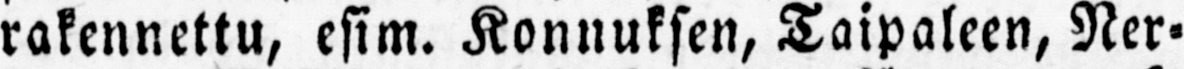rakennettu, esim. Konnuksen, Taipaleen, Ner-
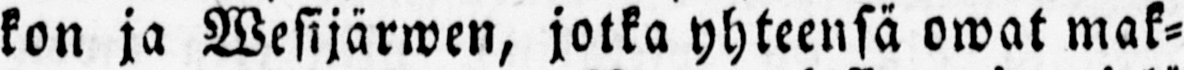kon ja Wesijärwen, jotka yhteensä owat mak-
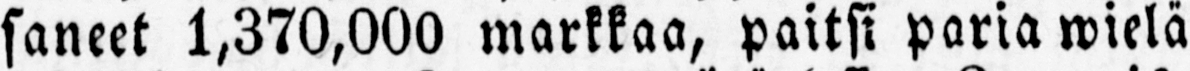saneet 1,370,000 markkaa, paitsi paria wielä
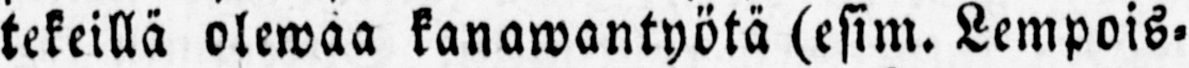tekeillä olewaa kanawantyötä (esim. Lempois-
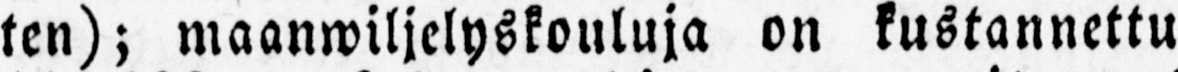ten); maanwiljelyskouluja on kustannettu
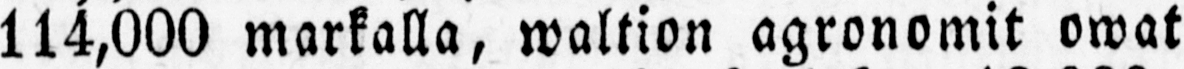114,000 markalla, waltion agronomit owat
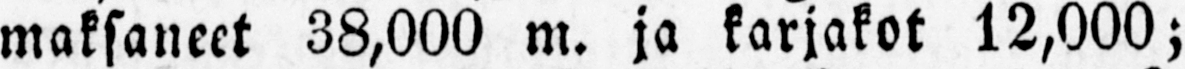maksaneet 38,000 m. ja karjakot 12,000;
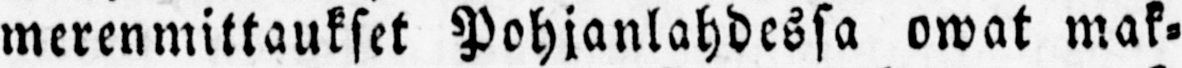merenmittaukset Pohjanlahdessa owat mak-
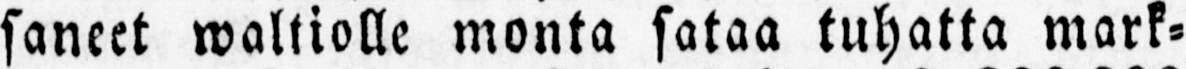saneet waltiolle monta sataa tuhatta mark-
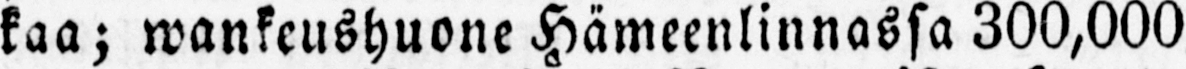kaa; wankeushuone Hämeenlinnassa 300,000
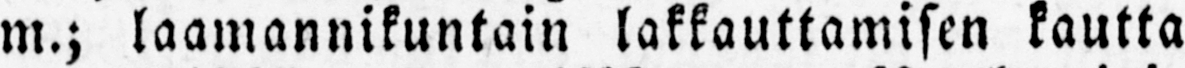m.; laamannikuntain lakkauttamisen kautta
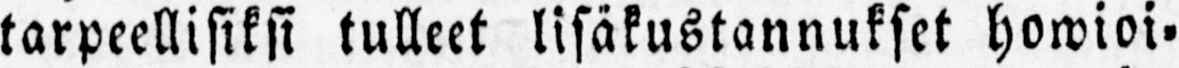tarpeellisiksi tulleet lisäkustannukset howioi-
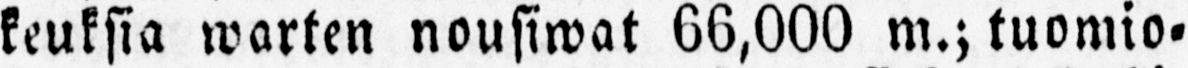keuksia warten nousiwat 66,000 m.; tuomio-
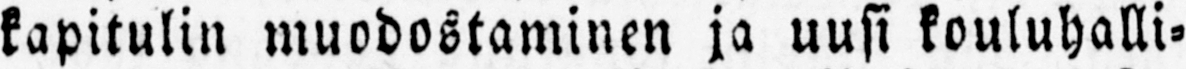kapitulin muodostaminen ja uusi kouluhalli-
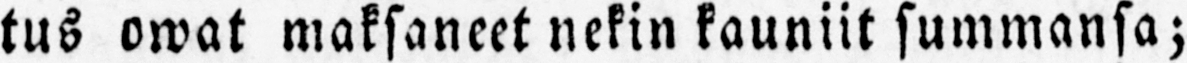tus owat maksaneet nekin kauniit summansa;
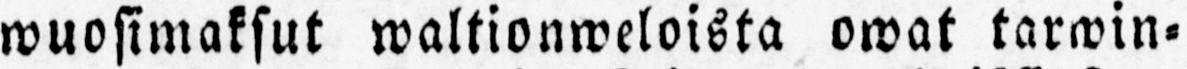wuosimaksut waltionweloista owat tarwin-
